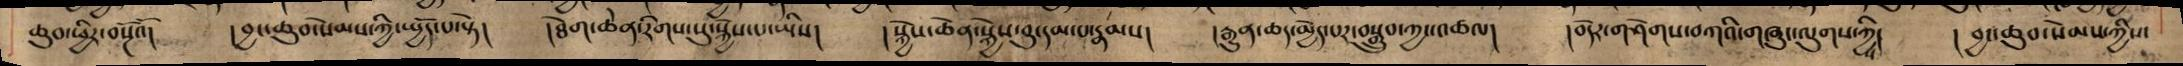ཆུབ་ཕྱིར་བསྔོའོ། །བྱང་ཆུབ་སེམས་ཀྱི་སྤྱོད་པ་སྟེ། །ཐེག་ཆེན་རིགས་སུ་སྐྱེས་པ་ཡིས། །སྐྱེས་ཆེན་སྐྱེས་བུ་དམ་པ་རྣམས། །རྒྱུན་ཆད་མྱེད་པར་བསྒྲུབ་ཀྱང་འཚལ། །བདེར་གཤེགས་བཀའི་གཞུང་ལུགས་ཀྱི། །བྱང་ཆུབ་སེམས་ཀྱིས་
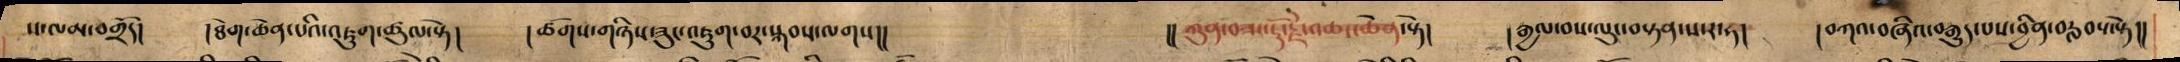ས་ལམ་བགྲོད། །ཐེག་ཆེན་པོའི་འཇུག་ཚུལ་སྟེ། །ཚོགས་གཉིས་ཟུང་འཇུག་བར་སྐབས་ལགས།། །།ཀུན་བཟང་རྡོ་རྗེ་འཆང་ཆེན་སྟེ། །རྒྱལ་བས་ལུང་བསྟན་ས་ར་ཧ། །བཀའ་བཞིན་བརྒུད་པས་བྱིན་བརླབས་སྟེ།།
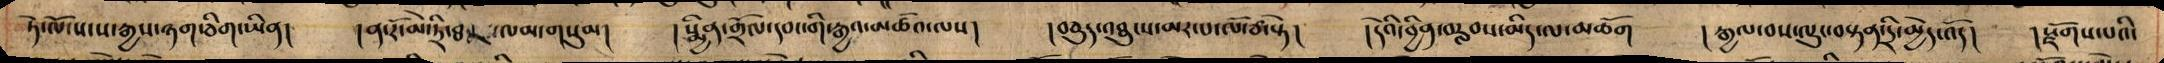ཏེ་ལོ་སངས་རྒྱས་ཉག་ཅིག་ཡིན། །ན་རོ་མེ་ཏྲེ་ཐར་ལམ་གསུམ། །སྨྱིན་གྲོལ་དབང་གི་རྒྱའ་མཚོའ་ལས། །བཅུད་འཐུངས་མར་པ་ལོ་ཙ་སྟེ། །དེའི་བྱིན་བརླབས་མིད་ལ་མཆོག །རྒྱལ་བས་ལུང་བསྟན་དྲི་མྱེད་འོད། །སྫོགས་པའི་
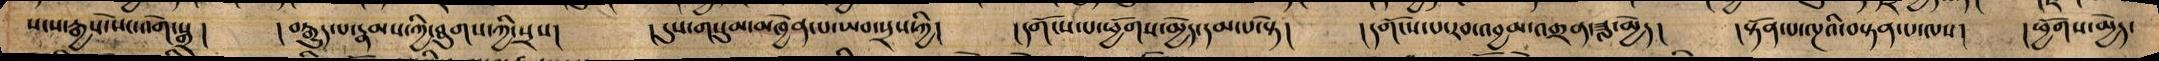སངས་རྒྱས་སེང་འགེ་སྒྲ ། །བརྒྱུད་པ་རྣམས་ཀྱི་ཐུགས་ཀྱི་སྲས། །དུས་གསུམ་མཁྱེན་པ་ཡབ་སྲས་ཀྱི། །དགོངས་པ་ཕྱོགས་མྱེད་དམ་པ་སྟེ། །དགོངས་པ་རབ་འབྱམ་འགྲན་ཟླ་མྱེད། །སྟོན་པ་ལྔའི་བསྟན་པ་ལས། །ཕྱོགས་མྱེད་
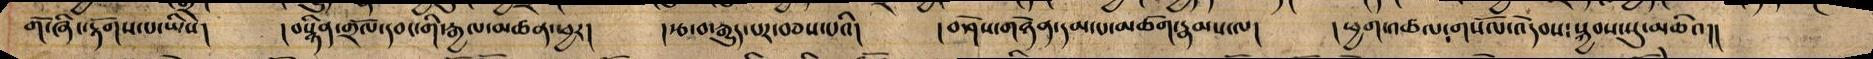གོ་ཞིང་རྟོགས་པ་ཡིས། །བསྙིན་གྲོལ་དབང་གི་རྒྱལ་མཚན་ཕྱར། །རྩ་བ་རྒྱུད་པར་བཅས་པའི། །བཤེས་གཉེན་དམ་པ་ཥཅོག་རྣམས་ལ། །ཕྱག་འཚལ་གསོལ་འདེབས་སྐྱབས་སུ་མཆིའ།།
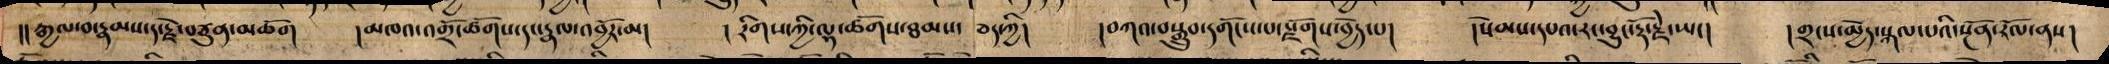།།རྒྱལ་བ་རྣམས་དང་རྗེ་བཙུན་མཆོག །མཁའ་འགྲོ་ཚོགས་དང་རྣལ་འབྱོར་མ། །རིགས་ཀྱི་ལྷ་ཚོགས་ཐམས་ ཅད་ཀྱི། །བཀའ་བསྒྲུབ་དགོངས་པ་སྫོགས་བྱེད་པ། །སེམས་དཔའ་རང་བྱུང་རྡོ་རྗེ་ཡཡང། །གྲངས་མྱེད་སྐལ་པའི་སྔོན་རོལ་ནས།
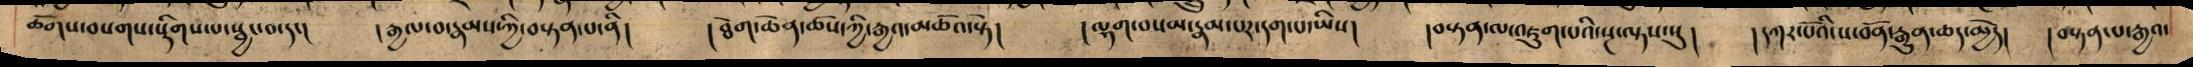ཚོགས་བསགས་སྡིགས་པ་སྦཡང་བ་ངད། །རྒྱལ་བ་རྣམས་ཀྱི་བསྟན་པ་ནི། །ཐེག་ཆེན་ཆོས་ཀྱི་རྒྱའ་མཚོའ་སྟེ། །ལྷག་བསམ་རྣམ་པར་དག་པ་ཡིས། །བསྟན་ལ་འཇུག་པའི་སྔ་ལྟས་སུ། །དཀར་པོའི་ས་བོན་རྒྱུན་ཆད་མྱེད། །བསྟན་པ་རྒྱའ་
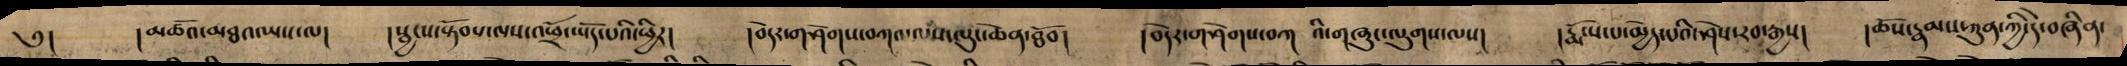༅། །མཚོའ་མཐའ་ཡས་ལ། །སྦྱངས་སྟོབས་ལས་འཕྲོ་ཡོད་པའི་ཕྱིར། །བདེར་གཤེགས་བཀའ་ལས་ལུང་ཆེན་ཐོབ། །བདེར་གཤེགས་བཀ འི་གཞུང་ལུགས་ལས། །རྨོངས་པ་མྱེད་པའི་ཤེས་རབ་རྒྱས། །ཆོས་རྣམས་ཀུན་ཀྱི་དེ་བཞིན་
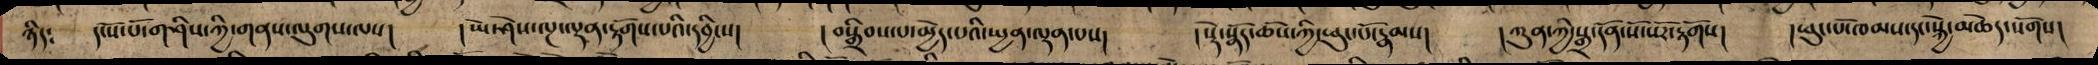ཉིད༴ དངོས་པོ་གཤིས་ཀྱི་གནས་ལུགས་ལས། །ཡེ་ཤེས་ལྔ་ལྡན་རྟོགས་པའི་དབྱིངས། །བསྒྲིབས་པ་མྱེད་པའི་སྤྱན་ལྡན་པས། །སྡེ་སྣོད་ཆོས་ཀྱི་ཕུང་པོ་རྣམས། །ཀུན་ཀྱི་སྒྲ་དོན་སོ་སོར་རྟོགས། ཕུང་པོ་ཁམས་སང་སྐྱེ་མཆེད་སོགས།
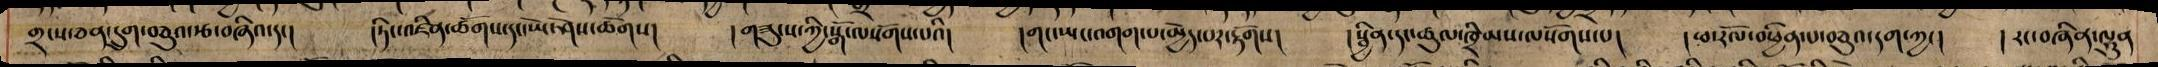གྲངས་ཅན་དྲུག་བཅུའ་རྩ་བཞིའ་དང། །ཏིང་འཛིན་ཚོགས་སང་ཡེ་ཤེས་ཚོགས། །གཟུངས་ཀྱི་སྒོ་ལསོགས་པའི། །གང་ཡང་འགག་པ་མྱེད་པར་རྟོགས། །སྦྱིན་དང་ཚུལ་ཁྲིམས་ལསོགས་པ། །ཕ་རོལ་བཕྱིན་པ་བཅུའ་དག་ཀྱང། ། རང་བཞིན་ལྷུན
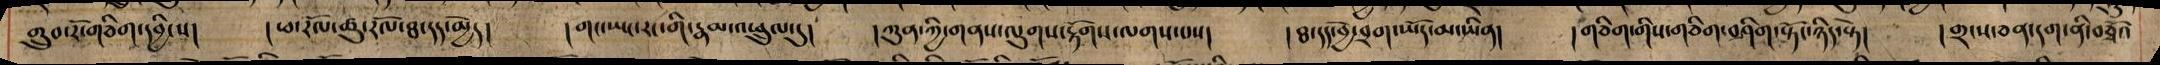གྲུབ་རོ་གཅིག་དབྱིངས། །ཕ་རོལ་ཚུ་རོལ་ཐ་དད་མྱེད། །གང་ཡང་རང་གི་རྣམས་འཕྲུལ་དུ། །ཀུན་ཀྱི་གནས་ལུགས་རྟོགས་ལགས་པས། །ཐ་དད་བྱེ་བྲག་ཡོད་མ་ཡིན། །གཅིག་གིས་གཅིག་བཤིག་སྟོང་ཉིད་སྟེ། །གྲངས་ཅན་དག་ནི་བཅྭོའ
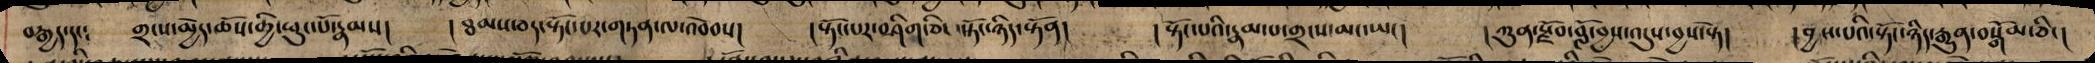བརྒྱད་དང༴ གྲངས་མྱེད་ཆོས་གྱི་ཕུང་པོ་རྣམས། །ཐམས་ཅད་སྟོང་པར་གཏན་ལ་འབེབས། །སྟོང་པར་བཤཱིག་ཅིང་སྟོང་ཉིད་སྟོན། །སྟོན་པའི་རྣམ་པ་གྲངས་མང་ཡང། །ཀུན་སྫོབ་བློ་བྱས་འདུས་བྱས་སྟེ། །བྱས་པའི་སྟོང་ཉིད་རྒྱུན་བསྒོམ་ཅིང།
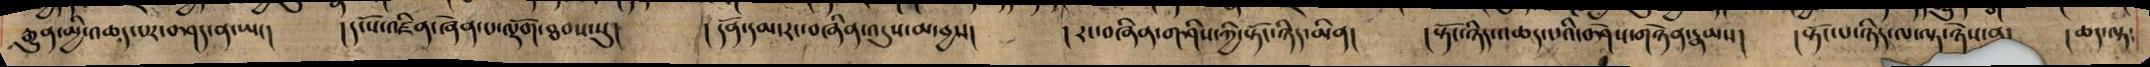རྒྱུན་མྱི་འཆད་པར་བཤད་ན་ཡང། །དངོས་འཛིན་ཞེན་པ་ལྡོག་ཐབས་སུ། །དོན་དམ་རང་བཞིན་འདུས་མ་བྱས། །རང་བཞིན་གཤིས་ཀྱི་སྟོང་ཉིད་མིན། །སྟོང་ཉིད་འཆད་པའི་བཤེས་གཉེན་རྣམས། །སྟོང་པ་ཉིད་ལ་ལྟ་ཉེས་ན། །ཆད་ལྟ་
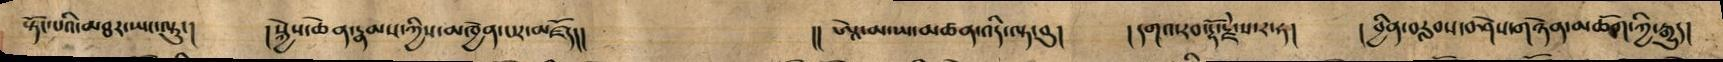སྟོང་པའི་མཐར་ཡང་ལྷུང། །སྐྱེས་ཆེན་རྣམས་ཀྱིས་མཁྱེན་པར་མཛོད།། །། ཨཱེ་མ་ཡ་མཚན་འདི་ལྟ་བུ། །དགའ་རབ་རྡོ་རྗེ་ས་ར་ཧ། །བྱིན་བརླབས་བཤེས་གཉེན་མཆོག་ཀྱི་རྒྱུད།
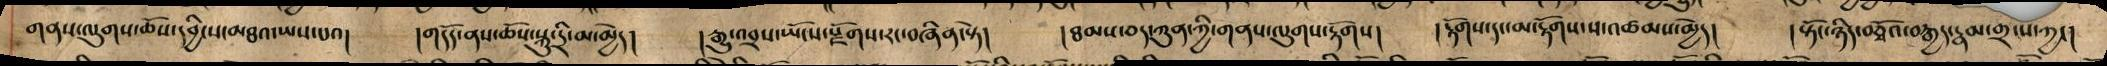གནས་ལུགས་ཆོས་དབྱིངས་མཐའ་ཡས་པའ། །གདོད་ནས་ཆོས་སྐུ་དྲི་མ་མྱེད། །རྒྱུ་འབྲས་ཡོངས་སྫོགས་རང་བཞིན་སྟེ། །ཐམས་ཅད་ཀུན་ཀྱི་གནས་ལུགས་རྟོགས། །རྟོགས་དང་མ་རྟོགས་ས་འཚམས་མྱེད། །སྟོང་ཉིད་བཅྭོའ་བརྒྱད་རྣམ་གྲངས་ཀྱང།
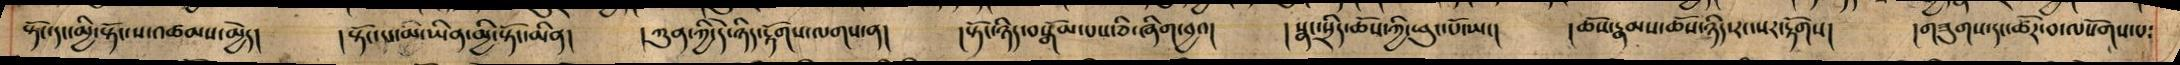སྟོང་དང་མྱི་སྟོང་ས་འཚམས་མྱེད། །སྟོང་པ་མ་ཡིན་མྱི་སྟོང་མིན། །ཀུན་ཀྱི་དེ་ཉིད་རྟོགས་ལགས་ན། །སྟོང་ཉིད་བསྒོམ་པས་ཅི་ཞིག་བྱའ། །སྣང་སྲིད་ཆོས་ཀྱི་ཕུང་པོ་ཡང། །ཆོས་རྣམས་ཆོས་ཉིད་རང་སར་རྟོགས། །གསུགས་དང་ཚོར་བ་ལསོགས་པ༴
